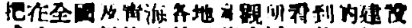把在全國及靑海各地參觀所看到的建設
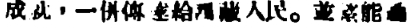成就，一併傳達給西藏人民。並望能通
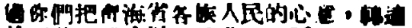過你們把靑海省各族人民的心意，轉達
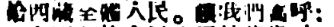給西藏全體人民。讓我們高呼：
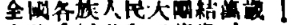全國各族人民大團結萬歲！
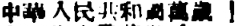中華人民共和國萬歲！
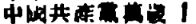中國共產黨萬歲！
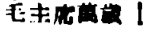毛主席萬歲！
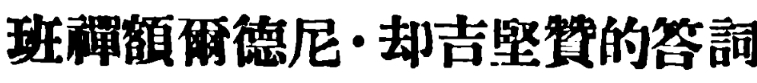班禪額爾德尼・却吉堅贊的答詞
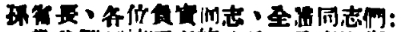孫省長、各位負責同志、全體同志們：
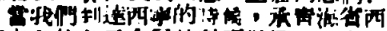當我們到達西寧的時候，承靑海省西
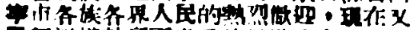寧市各族各界人民的熱烈歡迎，現在又
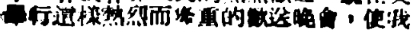舉行這樣熱烈而隆重的歡送晚會，使我
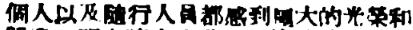個人以及隨行人員都感到極大的光榮和
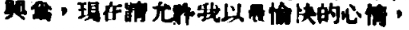興奮，新安洲請允許我以最愉快的心情，
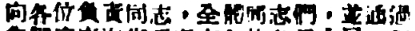向各位負責同志，全體同志們，並通過
